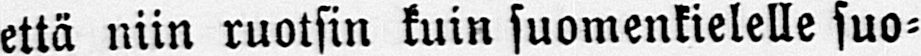että niin ruotsin kuin suomenkielelle suo-
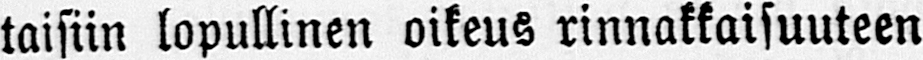taisiin lopullinen oikeus rinnakkaisuuteen
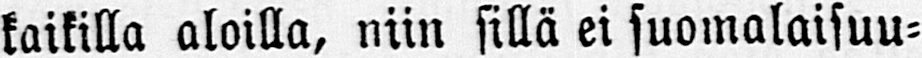kaikilla aloilla, niin sillä ei suomalaisuu-
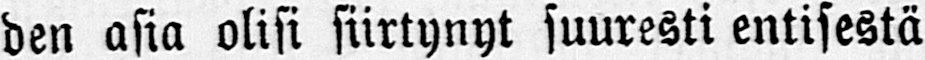den asia olisi siirtynyt suuresti entisestä
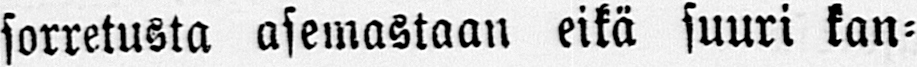sorretusta asemastaan eikä suuri kan-
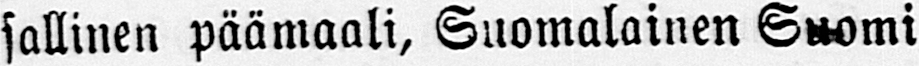sallinen päämaali, Suomalainen Suomi
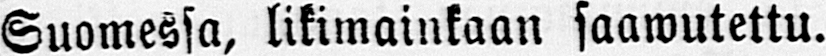Suomessa, likimainkaan saawutettu.
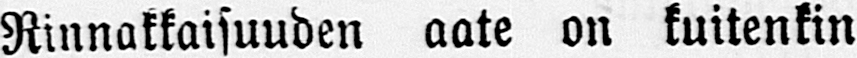Rinnakkaisuuden aate on kuitenkin
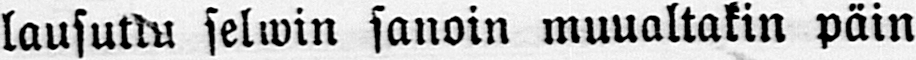lausuttu selwin sanoin muualtakin päin
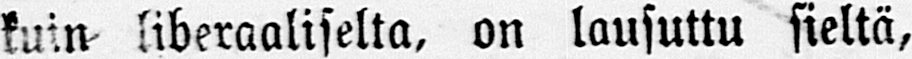kuin liberaaliselta, on lausuttu sieltä,
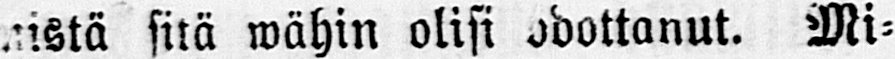mistä sitä wähin olisi odottanut. Mi-
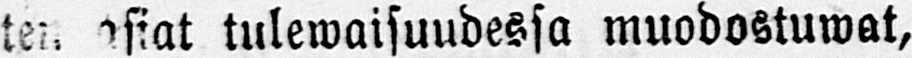ten asiat tulewaisuudessa muodostuwat,
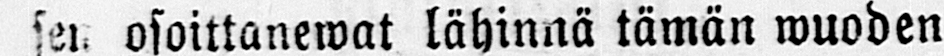sen osoittanewat lähinnä tämän wuoden
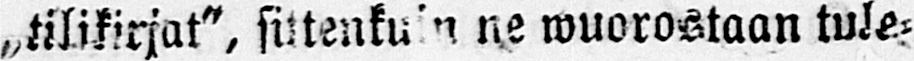˶tilikirjat", sittenkuin ne wuorostaan tule-
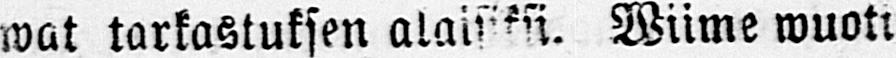wat tarkastuksen alaisiksi. Wiime wuoti
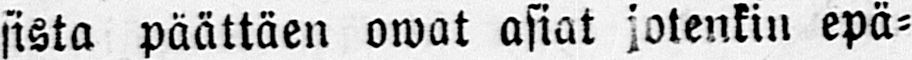sista päättäen omat asiat jotenkin epä-
